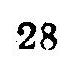28
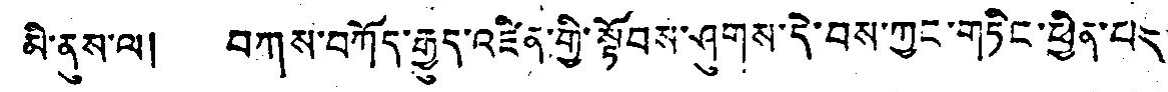མི་ནུས་ལ། བཀས་བཀོད་རྒྱུད་འཛིན་གྱི་སྟོབས་ཤུགས་དེ་བས་ཀྱང་གཏིང་ཕྱིན་པར་
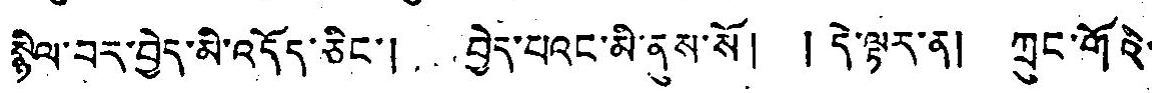སྙིལ་བར་བྱེད་མི་འདོད་ཅིང་། བྱེད་པའང་མི་ནུས་སོ། ། དེ་ལྟར་ན། ཀྲུང་གོའི་
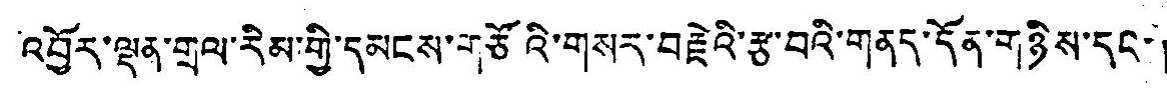འབྱོར་ལྡན་གྲལ་རིམ་གྱི་དམངས་གཙོའི་གསར་བརྗེའི་རྩ་བའི་གནད་དོན་གཉིས་དང་།
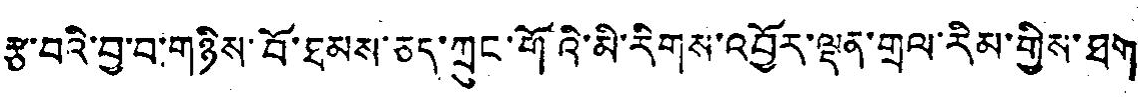རྩ་བའི་བྱ་བ་གཉིས་བོ་ཐམས་ཅད་ཀྲུང་གོའི་མི་རིགས་འབྱོར་ལྡན་གྲལ་རིམ་གྱིས་ཐག་
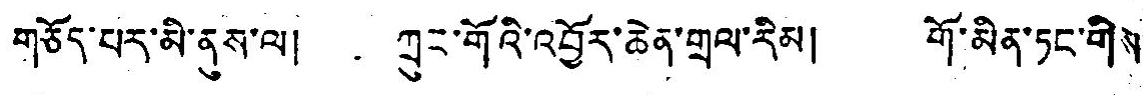གཅོད་པར་མི་ནུས་ལ། ཀྲུང་གོའི་འབྱོར་ཆེན་གྲལ་རིམ། གོ་མིན་ཏང་གིས་
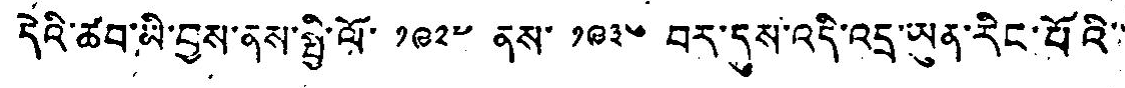དེའི་ཚབ་མི་བྱས་ནས་སྤྱི་ལོ་ ༡༩༢༧ ནས་ ༡༩༣༦ བར་དུས་འདི་འདྲ་ཡུན་རིང་པོའི་་་
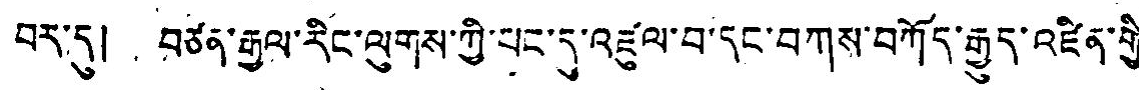བར་དུ། བཙན་རྒྱལ་རིང་ལུགས་ཀྱི་པང་དུ་འཛུལ་བ་དང་བཀས་བཀོད་རྒྱུད་འཛིན་གྱི་
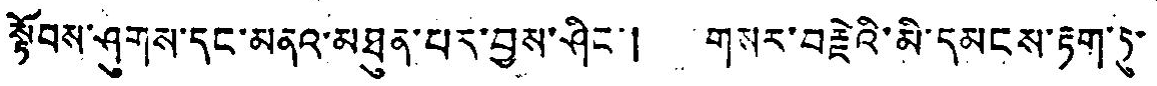སྟོབས་ཤུགས་དང་མནའ་མཐུན་པར་བྱས་ཤིང་། གསར་བརྗེའི་མི་དམངས་རྟག་ཏུ་
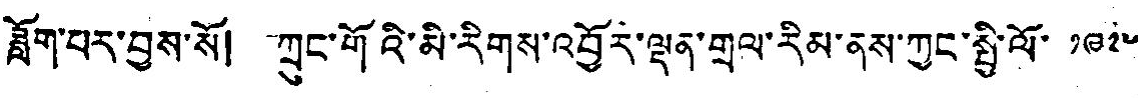ཟློག་པར་བྱས་སོ། ཀྲུང་གོའི་མི་རིགས་འབྱོར་ལྡན་གྲལ་རིམ་ནས་ཀྱང་སྤྱི་ལོ་ ༡༩༢༧
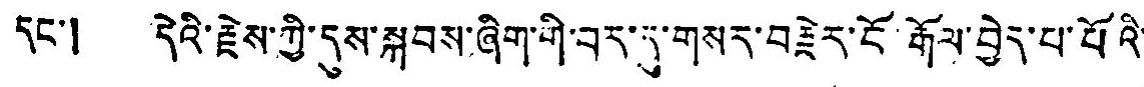དང་། དེའི་རྗེས་ཀྱི་དུས་སྐབས་ཞིག་གི་བར་དུ་གསར་བརྗེར་ངོ་རྒོལ་བྱེད་པ་པོའི་
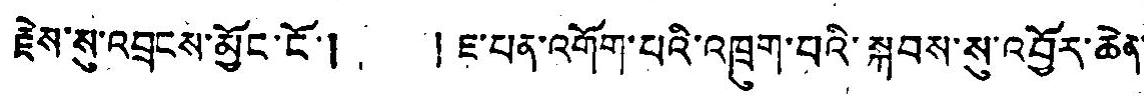རྗེས་སུ་འབྲངས་མྱོང་ངོ་། །ཇ་པན་འགོག་པའི་འཁྲུག་པའི་སྐབས་སུ་འབྱོར་ཆེན་
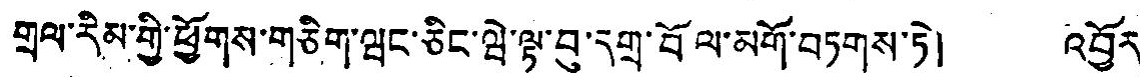གྲལ་རིམ་གྱི་ཕྱོགས་གཅིག་ཝང་ཅིང་ཝེ་ལྟ་བུ་དགྲ་བོལ་མགོ་བཏགས་ཏེ། འབྱོར་
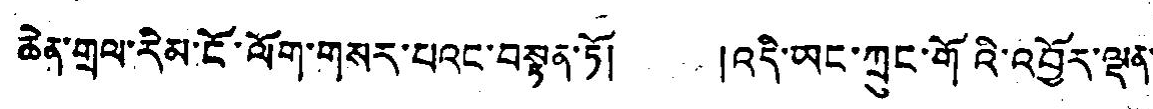ཆེན་གྲལ་རིམ་ངོ་ལོག་གསར་པའང་བསྟུན་ཏོ། །འདི་ཡང་ཀྲུང་གོའི་འབྱོར་ལྡན་
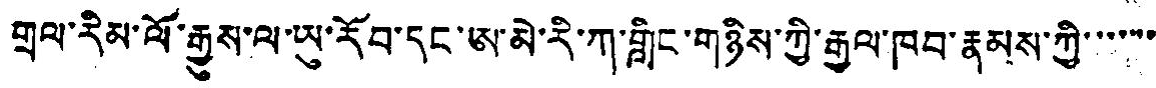གྲལ་རིམ་ལོ་རྒྱུས་ལ་ཡུ་རོབ་དང་ཨ་མེ་རི་ཀ་གླིང་གཉིས་ཀྱི་རྒྱལ་ཁབ་རྣམས་ཀྱི་་་་་་
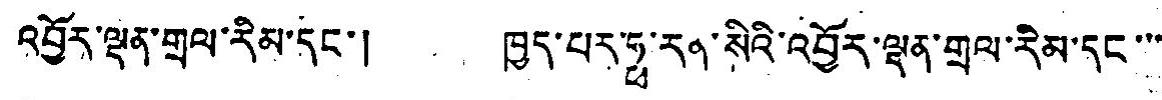འབྱོར་ལྡན་གྲལ་རིམ་དང་། ཁྱད་པར་ཧྥ་རན་སིའི་འབྱོར་ལྡན་གྲལ་རིམ་དང་་་
